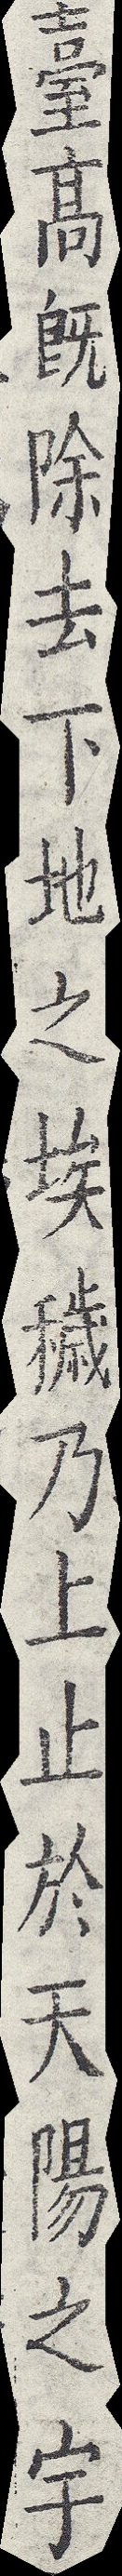臺高既除去下地之埃穢乃上止於天陽之宇
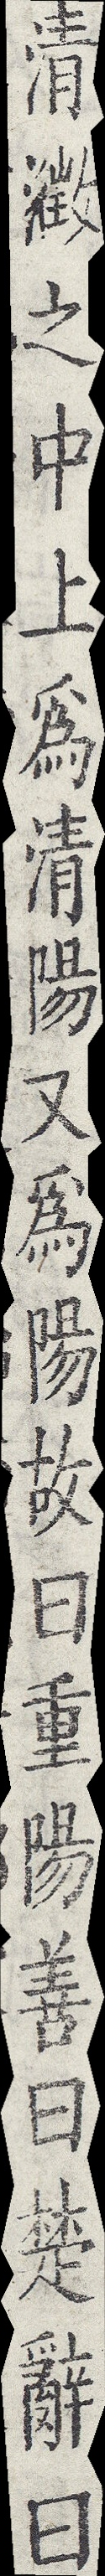清澂之中上為清陽又為陽故曰重陽善曰楚辭曰
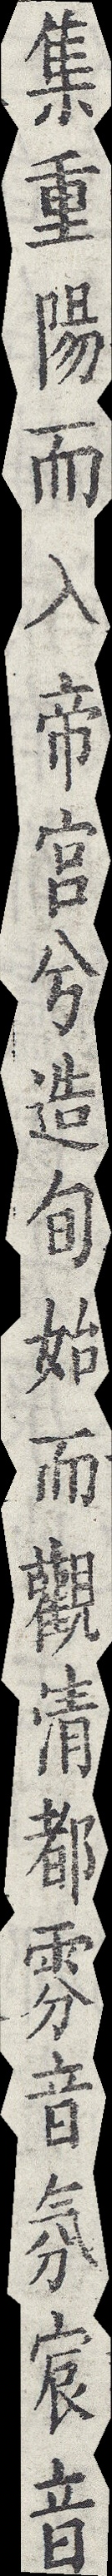集重陽而入帝宮兮造旬始而觀清都雰音氛宸音
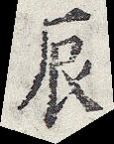辰
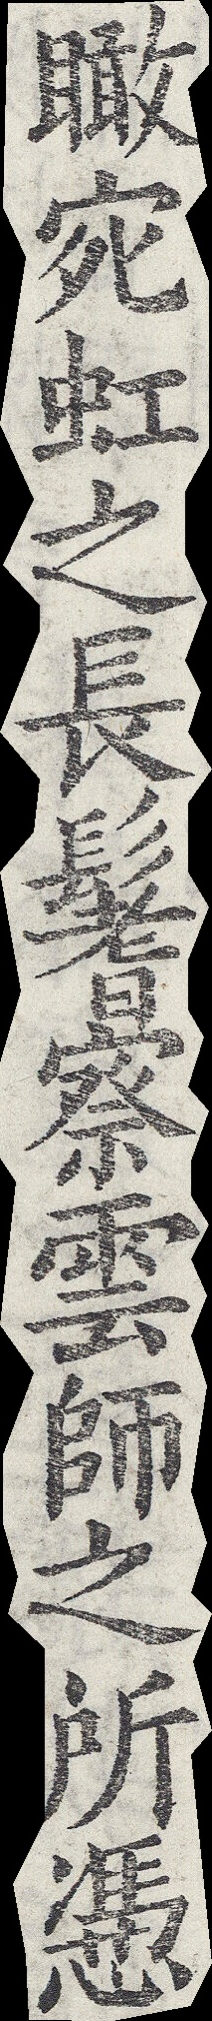瞰宛虹之長鬐察雲師之所憑
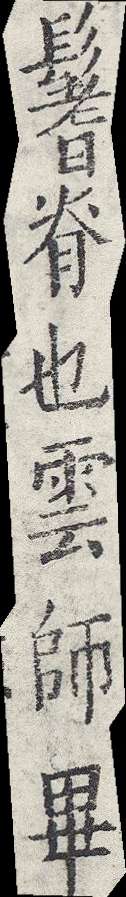鬐脊也雲師畢
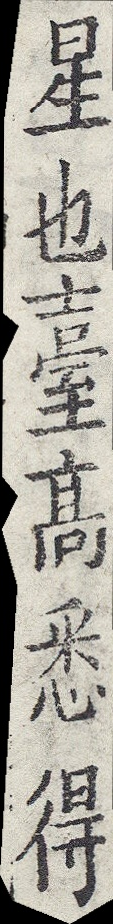星也臺高悉得
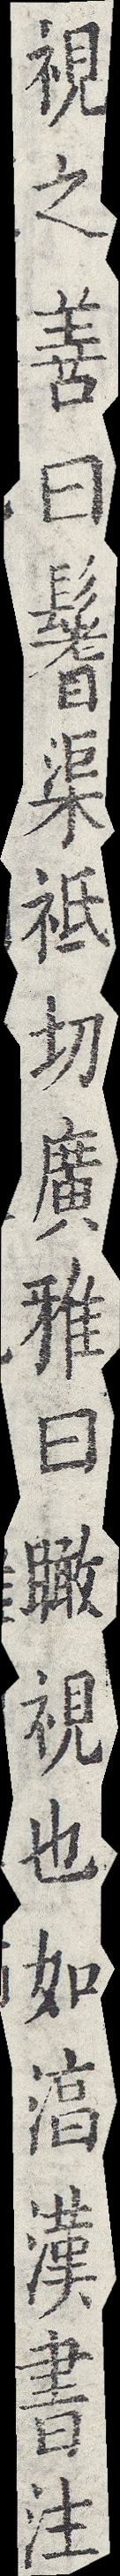視之善曰鬐渠祗切廣雅曰瞰視也如淳漢書注
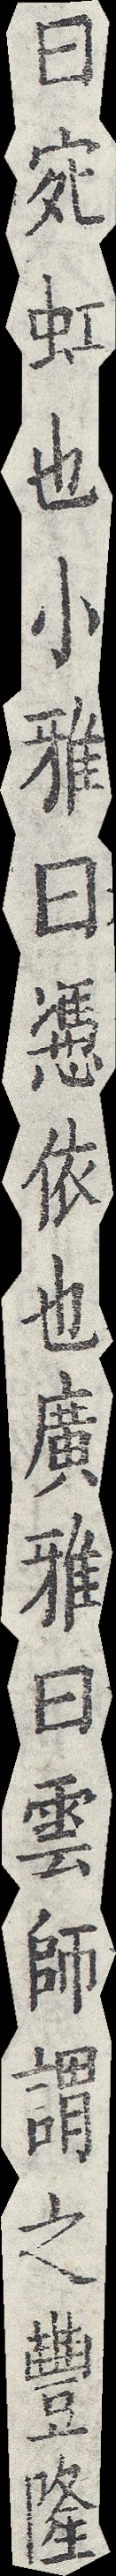曰宛虹也小雅曰憑依也廣雅曰雲師謂之豐隆
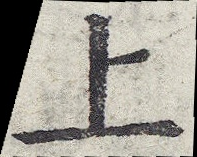上
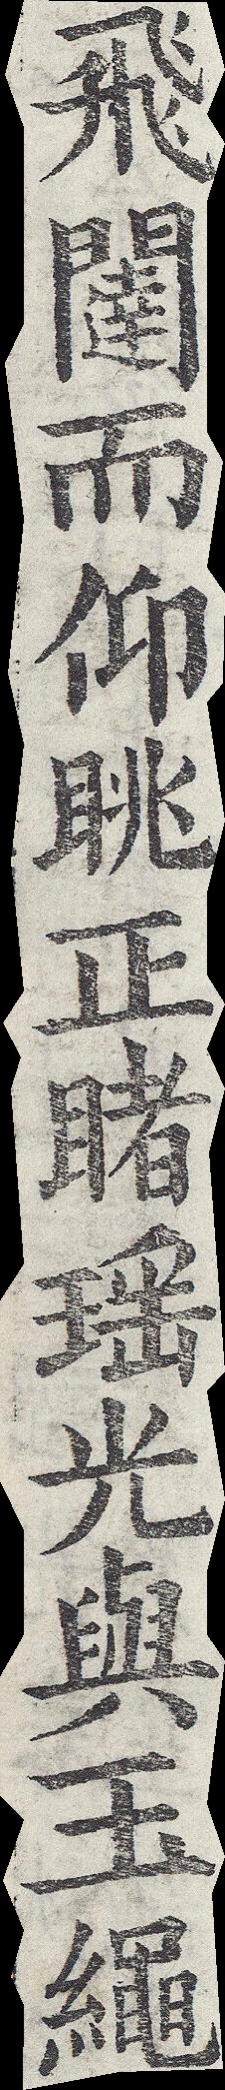飛闥而仰眺正睹瑤光與玉繩
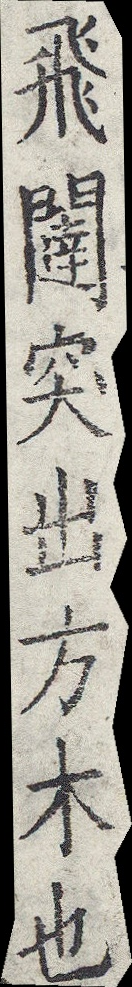飛闥突出方木也
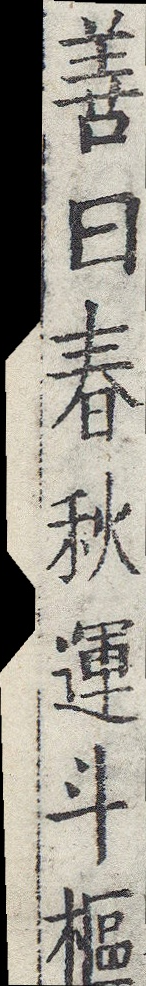善曰春秋運斗樞
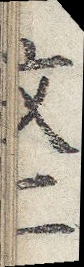文二
